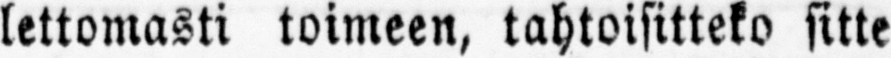lettomasti toimeen, tahtoisitteko sitte
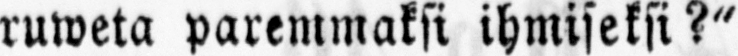ruweta paremmaksi ihmiseksi?"
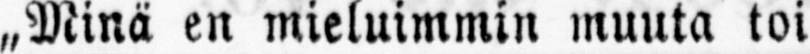„Minä en mieluimmin muuta toi-
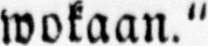wokaan."
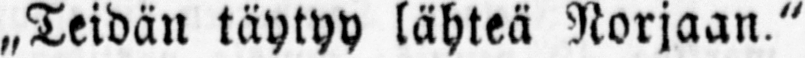„Teidän täytyy lähteä Norjaan."
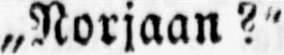„Norjaan?"
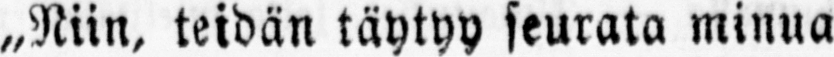„Niin, teidän täytyy seurata minua
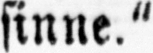sinne."
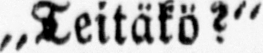„Teitäkö?"
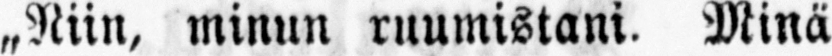„Niin, minun ruumistani. Minä
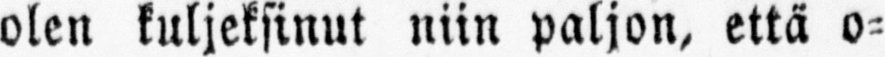olen kuljeksinut niin paljon, että o-
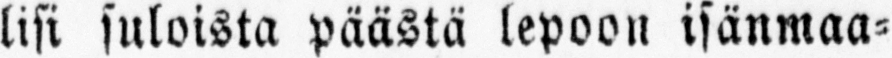lisi suloista päästä lepoon isänmaa-
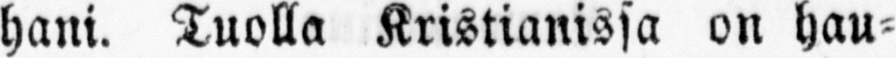hani. Tuolla Kristianissa on hau-
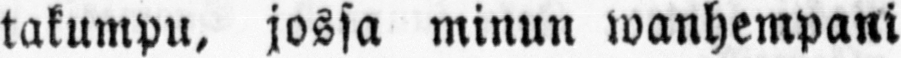takumpu, jossa minun wanhempani
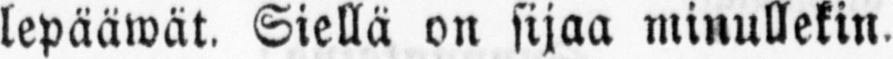lepääwät. Siellä on sijaa minullekin.
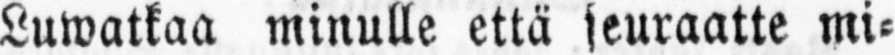Luwatkaa minulle että seuraatte mi-
